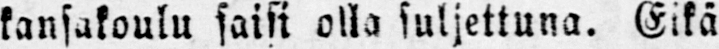kansakoulu saisi olla suljettuna. Eikä
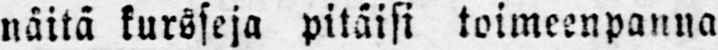näitä kursseja pitäisi toimeenpanna
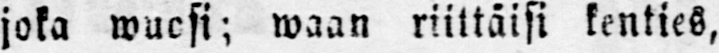joka wuosi-, waan riittäisi kenties,
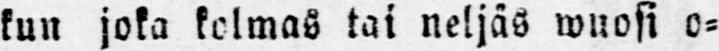kun joka kolmas tai neljäs wuosi o-
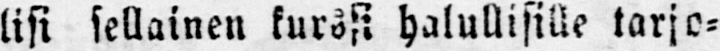lisi sellainen kurssi halullisille tarjo-
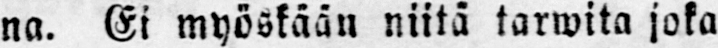na. Ei myöskään niitä tarwita joka
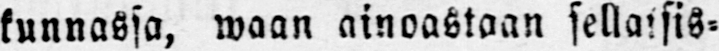kunnassa, maan ainoastaan sellaisis-
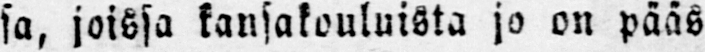sa, joissa kansakouluista jo on pääs-
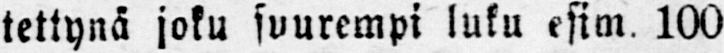tettynä joku suurempi luku esim. 100
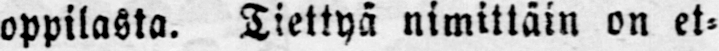oppilasta. Tiettyä nimittäin on et-
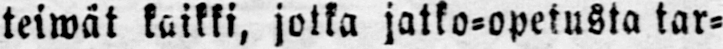teiwät kaikki, jotka jatko-opetusta tar-
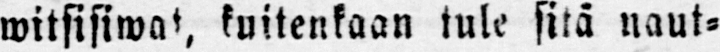witsisiwat, kuitenkaan tule sitä naut-
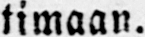timaan.
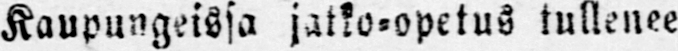Kaupungeissa ja tko-opetus tullenee
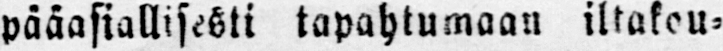pääasiallisesti tapahtumaan iltakou-
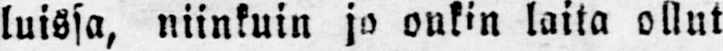luissa, niinkuin ja onkin laita ollut
